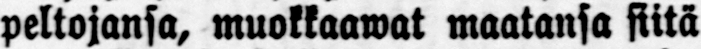peltojansa, muokkaawat maatansa siitä
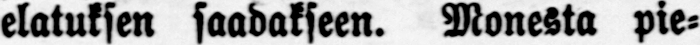elatuksen saadakseen. Monesta pie-
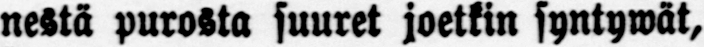nestä purosta suuret joetkin syntywät,
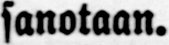sanotaan.
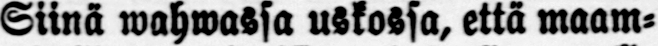Siinä wahwassa uskossa, että maam-
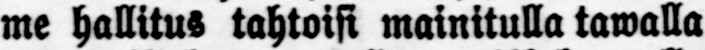me hallitus tahtoisi mainitulla tawalla
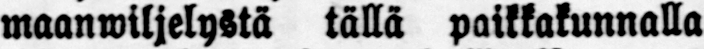maanwiljelystä tällä paikkakunnalla
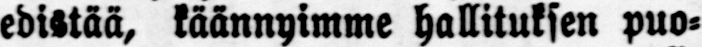edistää, käännyimme hallituksen puo-
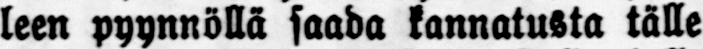leen pyynnöllä saada kannatusta tälle
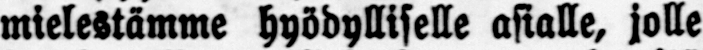mielestämme hyödylliselle asialle, jolle
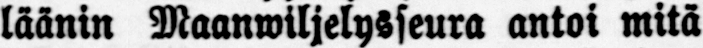läänin Maanwiljelysseura antoi mitä
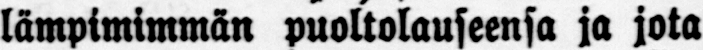lämpimimmän puoltolauseensa ja jota
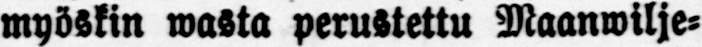myöskin wasta perustettu Maanwilje-
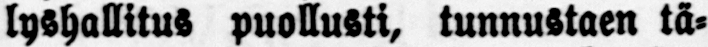lyshallitus puollusti, tunnustaen tä-
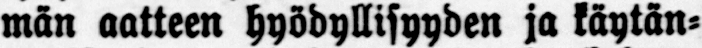män aatteen hyödyllisyyden ja käytän-
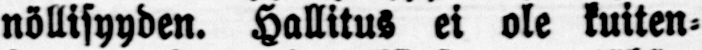nöllisyyden. Hallitus ei ole kuiten-
